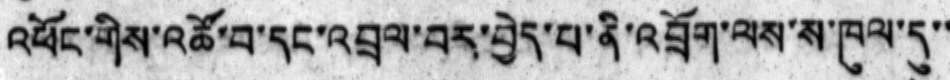འཕོང་གིས་འཚོ་བ་དང་འབྲལ་བར་བྱེད་པ་ནི་འབྲོག་ལས་ས་ཁུལ་དུ་་
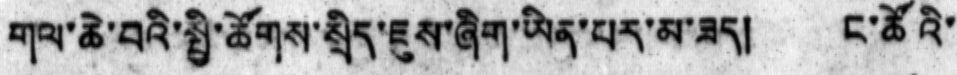གལ་ཆེ་བའི་སྤྱི་ཚོགས་སྲིད་ཇུས་ཞིག་ཡིན་པར་མ་ཟད།  ང་ཚོའི་
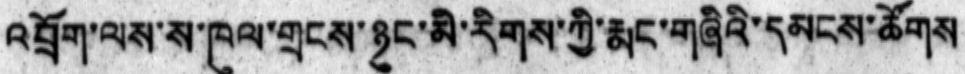འབྲོག་ལས་ས་ཁུལ་གྲངས་ཉུང་མི་རིགས་ཀྱི་རྨང་གཞིའི་དམངས་ཚོགས
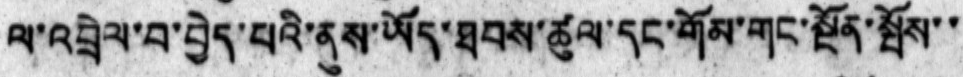ལ་འབྲེལ་བ་བྱེད་པའི་ནུས་ཡོད་ཐབས་ཚུལ་དང་གོམ་གང་སྔོན་སྤོས་་
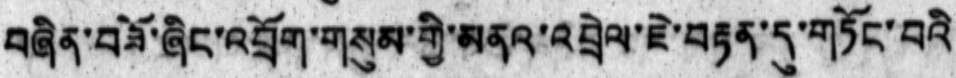བཞིན་བཟོ་ཞིང་འབྲོག་གསུམ་གྱི་མནའ་འབྲེལ་ཇེ་བརྟན་དུ་གཏོང་བའི
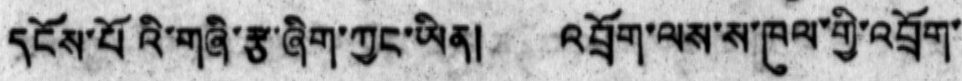དངོས་པོའི་གཞི་རྩ་ཞིག་ཀྱང་ཡིན། འབྲོག་ལས་ས་ཁུལ་གྱི་འབྲོག་
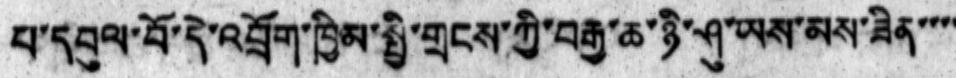པ་དབུལ་བོ་དེ་འབྲོག་ཁྱིམ་སྤྱི་གྲངས་ཀྱི་བརྒྱ་ཆ་ཉི་ཤུ་ཡས་མས་ཟིན་་་་
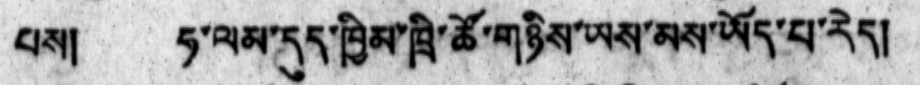པས། ཧ་ལམ་དུད་ཁྱིམ་ཁྲི་ཚོ་གཉིས་ཡས་མས་ཡོད་པ་རེད།
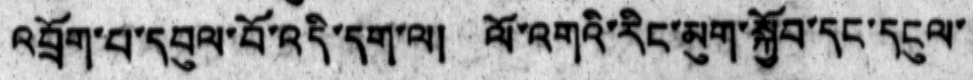འབྲོག་པ་དབུལ་བོ་འདི་དག་ལ། ལོ་འགའི་རིང་མུག་སྐྱོབ་དང་དངུལ་
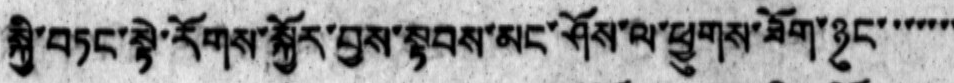སྐྱི་བཏང་སྟེ་རོགས་སྐྱོར་བྱས་སྟབས་མང་ཤོས་ལ་ཕྱུགས་ཟོག་ཉུང་་་་་་་
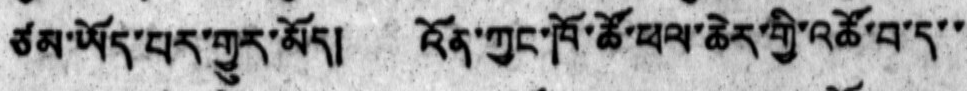ཙམ་ཡོད་པར་གྱུར་མོད། འོན་ཀྱང་ཁོ་ཚོ་ཕལ་ཆེར་གྱི་འཚོ་བ་ད་་
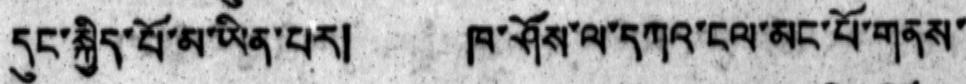དུང་སྐྱིད་པོ་མ་ཡིན་པར། ཁ་ཤོས་ལ་དཀའ་ངལ་མང་པོ་གནས་
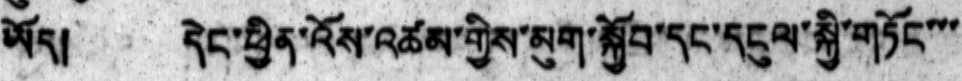ཡོད། དེང་ཕྱིན་འོས་འཚམ་གྱིས་མུག་སྐྱོབ་དང་དངུལ་སྐྱི་གཏོང་་་
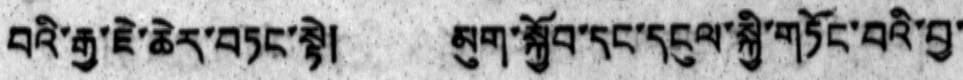བའི་རྒྱ་རྗེ་ཆེར་བཏང་སྟེ། མུག་སྐྱོབ་དང་དངུལ་སྐྱི་གཏོང་བའི་བྱ་
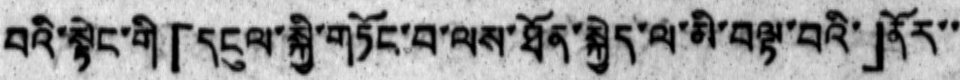བའི་སྟེང་གི「དངུལ་སྐྱི་གཏོང་བ་ལས་ཐོན་སྐྱེད་ལ་མི་བལྟ་བའི་」ནོར་་
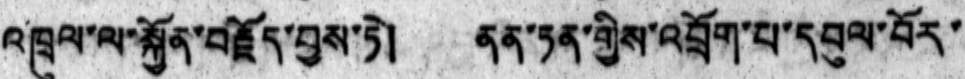འཁྲུལ་ལ་སྐྱོན་བརྗོད་བྱས་ཏེ། ནན་ཏན་གྱིས་འབྲོག་པ་དབུལ་བོར་
